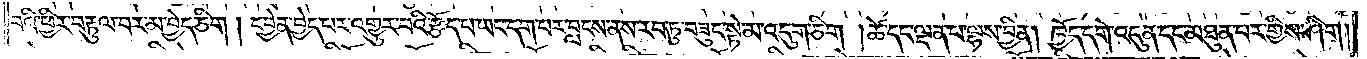བའི་ཕྱིར་བརྟུལ་བར་མ་བྱེད་ཅིག །དབྱེན་བྱེད་པར་འགྱུར་བའི་རྩོད་པ་ཡང་དག་པར་བླངས་ནས་རབ་ཏུ་བཟུང་སྟེ་མ་འདུག་ཅིག །ཚེ་དང་ལྡན་པ་ལྷས་བྱིན། ཁྱོད་དགེ་འདུན་དང་མཐུན་པར་གྱིས་ཤིག །
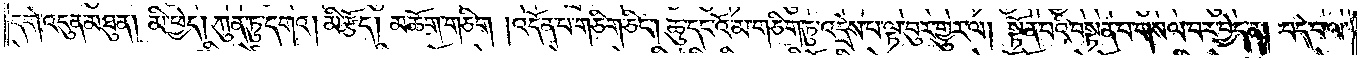དགེ་འདུན་མཐུན། མི་ཕྱེད། ཀུན་ཏུ་དགའ། མི་རྩོད། མཆོག་གཅིག །འདོན་པ་གཅིག་ཅིང༌། ཆུ་དང་འོ་མ་གཅིག་ཏུ་འདྲེས་པ་ལྟ་བུར་གྱུར་ལ། སྟོན་པའི་བསྟན་པ་གསལ་བར་བྱེད་ན། བདེ་བ་ལ་
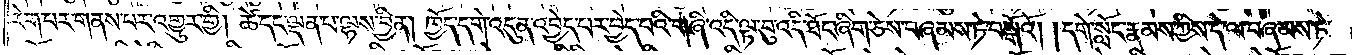རེག་པར་གནས་པར་འགྱུར་གྱི། ཚེ་དང་ལྡན་པ་ལྷས་བྱིན། ཁྱོད་དགེ་འདུན་འབྱེད་པར་བྱེད་པའི་གཞི་འདི་ལྟ་བུ་འདི་ཐོང་ཞིང་ཅེས་བཞམས་ཏེ་བསྒོའོ། །དགེ་སློང་རྣམས་ཀྱིས་དེ་ལ་བཞམས་ཏེ་
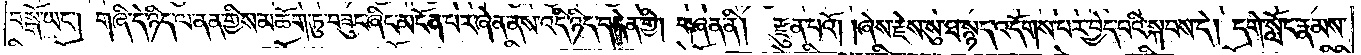བསྒོ་ཡང༌། གཞི་དེ་ཉིད་ལ་ནན་གྱིས་མཆོག་ཏུ་བཟུང་ཞིང་མངོན་པར་ཞེན་ནས་འདི་ཉིད་བདེན་གྱི། གཞན་ནི། རྫུན་པའོ། །ཞེས་རྗེས་སུ་ཐ་སྙད་འདོགས་པར་བྱེད་པའི་སྐབས་དེ། དགེ་སློང་རྣམས་
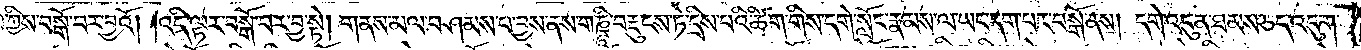ཀྱིས་བསྒོ་བར་བྱའོ། །འདི་ལྟར་བསྒོ་བར་བྱ་སྟེ། གནས་མལ་བཤམས་པ་བྱས་ནས་གཎྜཱི་བརྡུངས་ཏེ་དྲིས་པའི་ཚིག་གིས་དགེ་སློང་རྣམས་ལ་ཡང་དག་པར་བསྒོ་ནས། དགེ་འདུན་ཐམས་ཅད་འདུག་
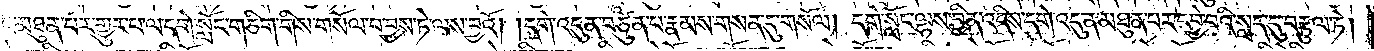ང་མཐུན་པར་གྱུར་པ་ལ་དགེ་སློང་གཅིག་གིས་གསོལ་བ་བྱས་ཏེ་ལས་བྱའོ། །དགེ་འདུན་བཙུན་པ་རྣམས་གསན་དུ་གསོལ། དགེ་སློང་ལྷས་བྱིན་འདིས་དགེ་འདུན་མཐུན་པར་དབྱེ་བའི་སླད་དུ་བརྟུལ་ཏེ།
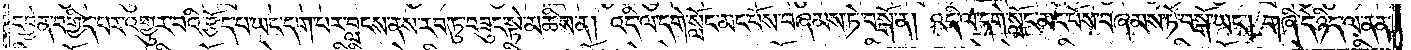དབྱེན་བགྱིད་པར་འགྱུར་བའི་རྩོད་པ་ཡང་དག་པར་བླངས་ནས་རབ་ཏུ་བཟུང་སྟེ་མཆིས་ན། འདི་ལ་དགེ་སློང་མང་པོས་བཞམས་ཏེ་བསྒོ་ན། འདི་ལ་དགེ་སློང་མང་པོས་བཞམས་ཏེ་བསྒོ་ཡང༌། གཞི་དེ་ཉིད་ལ་ནན་
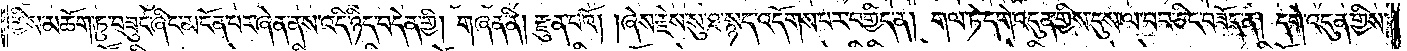གྱིས་མཆོག་ཏུ་བཟུང་ཞིང་མངོན་པར་ཞེན་ནས་འདི་ཉིད་བདེན་གྱི། གཞན་ནི། རྫུན་པའོ། །ཞེས་རྗེས་སུ་ཐ་སྙད་འདོགས་པར་བགྱིད་ན། གལ་ཏེ་དགེ་འདུན་གྱིས་དུས་ལ་བབ་ཅིང་བཟོད་ན། དགེ་འདུན་གྱིས་
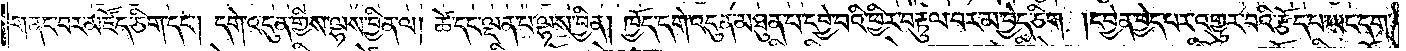གནང་བར་མཛོད་ཅིག་དང༌། དགེ་འདུན་གྱིས་ལྷས་བྱིན་ལ། ཚེ་དང་ལྡན་པ་ལྷས་བྱིན། ཁྱོད་དགེ་འདུན་མཐུན་པ་དབྱེ་བའི་ཕྱིར་བརྟུལ་བར་མ་བྱེད་ཅིག །དབྱེན་བྱེད་པར་འགྱུར་བའི་རྩོད་པ་ཡང་དག་
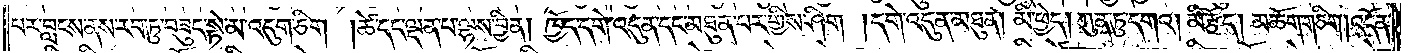པར་བླངས་ནས་རབ་ཏུ་བཟུང་སྟེ་མ་འདུག་ཅིག །ཚེ་དང་ལྡན་པ་ལྷས་བྱིན། ཁྱོད་དགེ་འདུན་དང་མཐུན་པར་གྱིས་ཤིག །དགེ་འདུན་མཐུན། མི་ཕྱེད། ཀུན་ཏུ་དགའ། མི་རྩོད། མཆོག་གཅིག །འདོན་
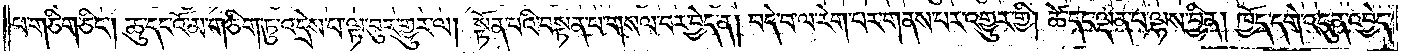པ་གཅིག་ཅིང༌། ཆུ་དང་འོ་མ་གཅིག་ཏུ་འདྲེས་པ་ལྟ་བུར་གྱུར་ལ། སྟོན་པའི་བསྟན་པ་གསལ་བར་བྱེད་ན། བདེ་བ་ལ་རེག་པར་གནས་པར་འགྱུར་གྱི། ཚེ་དང་ལྡན་པ་ལྷས་བྱིན། ཁྱོད་དགེ་འདུན་འབྱེད་
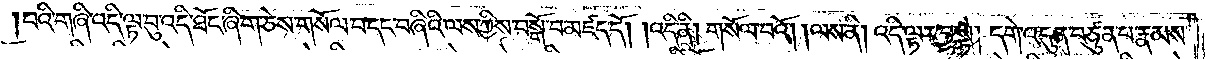པའི་གཞི་འདི་ལྟ་བུ་འདི་ཐོང་ཞིག་ཅེས་གསོལ་བ་དང་བཞིའི་ལས་ཀྱིས་བསྒོ་བ་མཛད་དོ། །འདི་ནི། གསོལ་བའོ། །ལས་ནི། འདི་ལྟར་བྱ་སྟེ། དགེ་འདུན་བཙུན་པ་རྣམས་
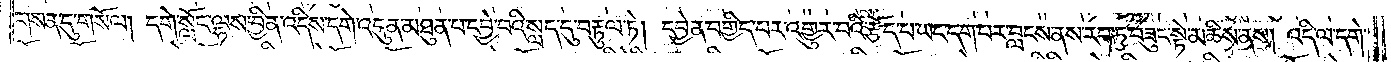གསན་དུ་གསོལ། དགེ་སློང་ལྷས་བྱིན་འདིས་དགེ་འདུན་མཐུན་པ་དབྱེ་བའི་སླད་དུ་བརྟུལ་ཏེ། དབྱེན་བགྱིད་པར་འགྱུར་བའི་རྩོད་པ་ཡང་དག་པར་བླངས་ནས་རབ་ཏུ་བཟུང་སྟེ་མཆིས་ནས། འདི་ལ་དགེ་
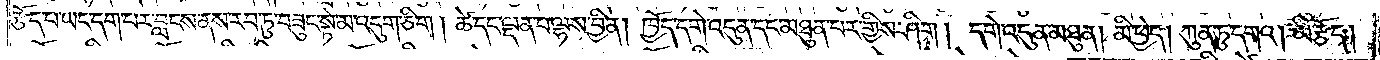རྩོད་པ་ཡང་དག་པར་བླངས་ནས་རབ་ཏུ་བཟུང་སྟེ་མ་འདུག་ཅིག ། ཚེ་དང་ལྡན་པ་ལྷས་བྱིན། ཁྱོད་དགེ་འདུན་དང་མཐུན་པར་གྱིས་ཤིག ། དགེ་འདུན་མཐུན། མི་ཕྱེད། ཀུན་ཏུ་དགའ། མི་རྩོད།
